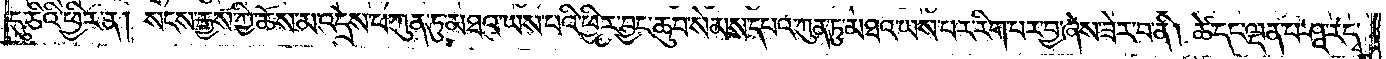དུ་ཅིའི་ཕྱིར་ན། སངས་རྒྱས་ཀྱི་ཆོས་མ་འདྲེས་པ་ཀུན་ཏུ་མཐའ་ཡས་པའི་ཕྱིར་བྱང་ཆུབ་སེམས་དཔའ་ཀུན་ཏུ་མཐའ་ཡས་པར་རིག་པར་བྱ་ཞེས་ཟེར་བ་ནི། ཚེ་དང་ལྡན་པ་ཤཱ་ར་དྭ་
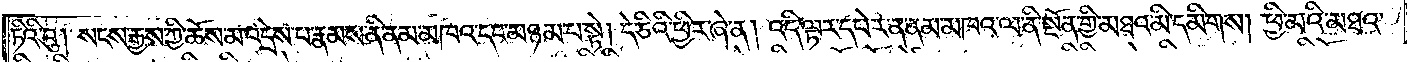ཏིའི་བུ། སངས་རྒྱས་ཀྱི་ཆོས་མ་འདྲེས་པ་རྣམས་ནི་ནམ་མཁའ་དང་མཉམ་པ་སྟེ། དེ་ཅིའི་ཕྱིར་ཞེ་ན། འདི་ལྟར་དཔེར་ན་ནམ་མཁའ་ལ་ནི་སྔོན་གྱི་མཐའ་མི་དམིགས། ཕྱི་མའི་མཐའ་
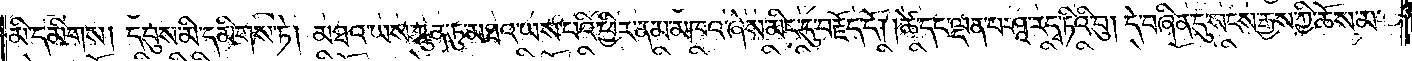མི་དམིགས། དབུས་མི་དམིགས་ཏེ། མཐའ་ཡས་ཀུན་ཏུ་མཐའ་ཡས་པའི་ཕྱིར་ནམ་མཁའ་ཞེས་མིང་དུ་བརྗོད་དོ། །ཚེ་དང་ལྡན་པ་ཤཱ་ར་དྭ་ཏིའི་བུ་དེ་བཞིན་དུ་སངས་རྒྱས་ཀྱི་ཆོས་མ་
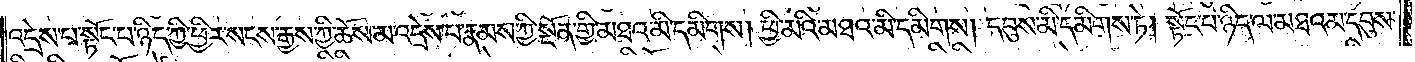འདྲེས་པ་སྟོང་པ་ཉིད་ཀྱི་ཕྱིར་སངས་རྒྱས་ཀྱི་ཆོས་མ་འདྲེས་པ་རྣམས་ཀྱི་སྔོན་གྱི་མཐའ་མི་དམིགས། ཕྱི་མའི་མཐའ་མི་དམིགས། དབུས་མི་དམིགས་ཏེ། སྟོང་པ་ཉིད་ལ་མཐའམ་དབུས་
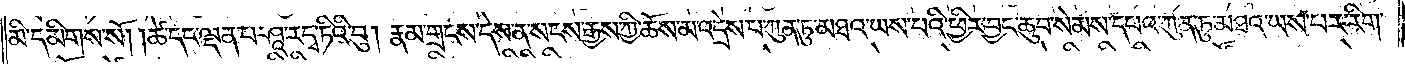མི་དམིགས་སོ། །ཚེ་དང་ལྡན་པ་ཤཱ་ར་དྭ་ཏིའི་བུ། རྣམ་གྲངས་དེས་ན་སངས་རྒྱས་ཀྱི་ཆོས་མ་འདྲེས་པ་ཀུན་ཏུ་མཐའ་ཡས་པའི་ཕྱིར་བྱང་ཆུབ་སེམས་དཔའ་ཀུན་ཏུ་མཐའ་ཡས་པར་རིག་
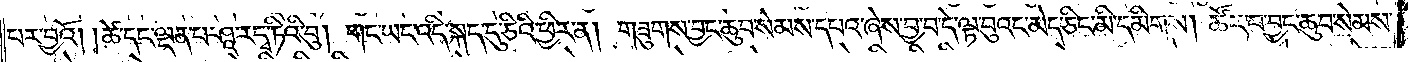པར་བྱའོ། །ཚེ་དང་ལྡན་པ་ཤཱ་ར་དྭ་ཏིའི་བུ། གང་ཡང་འདི་སྐད་དུ་ཅིའི་ཕྱིར་ན། གཟུགས་བྱང་ཆུབ་སེམས་དཔའ་ཞེས་བྱ་བ་དེ་ལྟ་བུའང་མེད་ཅིང་མི་དམིགས། ཚོར་བ་བྱང་ཆུབ་སེམས་
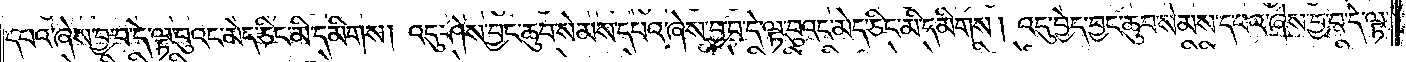དཔའ་ཞེས་བྱ་བ་དེ་ལྟ་བུའང་མེད་ཅིང་མི་དམིགས། འདུ་ཤེས་བྱང་ཆུབ་སེམས་དཔའ་ཞེས་བྱ་བ་དེ་ལྟ་བུའང་མེད་ཅིང་མི་དམིགས། འདུ་བྱེད་བྱང་ཆུབ་སེམས་དཔའ་ཞེས་བྱ་བ་དེ་ལྟ་
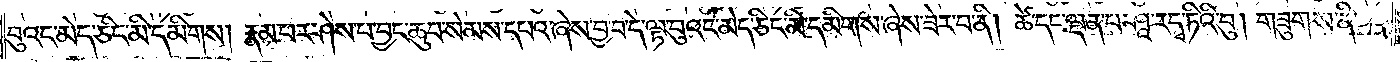བུའང་མེད་ཅིང་མི་དམིགས། རྣམ་པར་ཤེས་པ་བྱང་ཆུབ་སེམས་དཔའ་ཞེས་བྱ་བ་དེ་ལྟ་བུའང་མེད་ཅིང་མི་དམིགས་ཞེས་ཟེར་བ་ནི། ཚེ་དང་ལྡན་པ་ཤཱ་ར་དྭ་ཏིའི་བུ། གཟུགས་ནི་
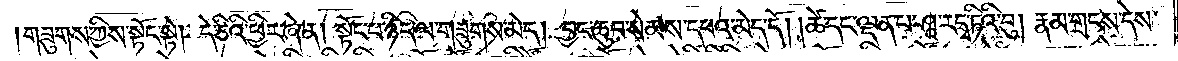གཟུགས་ཀྱིས་སྟོང་སྟེ། དེ་ཅིའི་ཕྱིར་ཞེ་ན། སྟོང་པ་ཉིད་ལ་གཟུགས་མེད། བྱང་ཆུབ་སེམས་དཔའ་མེད་དོ། །ཚེ་དང་ལྡན་པ་ཤཱ་ར་དྭ་ཏིའི་བུ། རྣམ་གྲངས་དེས་
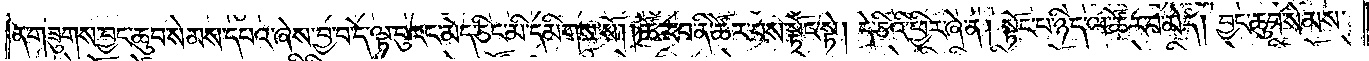ན་གཟུགས་བྱང་ཆུབ་སེམས་དཔའ་ཞེས་བྱ་བ་དེ་ལྟ་བུའང་མེད་ཅིང་མི་དམིགས་སོ། །ཚོར་བ་ནི་ཚོར་བས་སྟོང་སྟེ། དེ་ཅིའི་ཕྱིར་ཞེ་ན། སྟོང་པ་ཉིད་ལ་ཚོར་བ་མེད། བྱང་ཆུབ་སེམས་
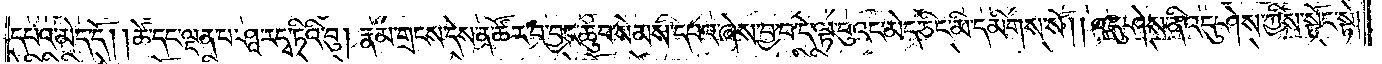དཔའ་མེད་དོ། །ཚེ་དང་ལྡན་པ་ཤཱ་ར་དྭ་ཏིའི་བུ། རྣམ་གྲངས་ཏེས་ན་ཚོར་བ་བྱང་ཆུབ་སེམས་དཔའ་ཞེས་བྱ་བ་དེ་ལྟ་བུའང་མེད་ཅིང་མི་དམིགས་སོ། །འདུ་ཤེས་ནི་འདུ་ཤེས་ཀྱིས་སྟོང་སྟེ།
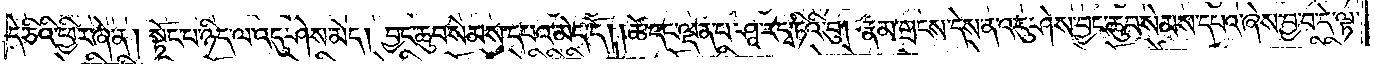དེ་ཅིའི་ཕྱིར་ཞེ་ན། སྟོང་པ་ཉིད་ལ་འདུ་ཤེས་མེད། བྱང་ཆུབ་སེམས་དཔའ་མེད་དོ། །ཚེ་དང་ལྡན་པ་ཤཱ་ར་དྭ་ཏིའི་བུ། རྣམ་གྲངས་དེས་ན་འདུ་ཤེས་བྱང་ཆུབ་སེམས་དཔའ་ཞེས་བྱ་བ་དེ་ལྟ་
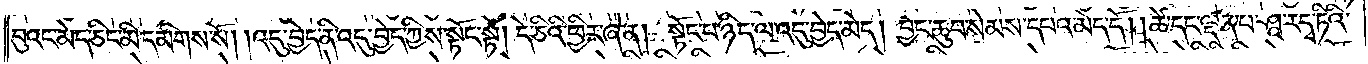བུའང་མེད་ཅིང་མི་དམིགས་སོ། །འདུ་བྱེད་ནི་འདུ་བྱེད་ཀྱིས་སྟོང་སྟེ། དེ་ཅིའི་ཕྱིར་ཞེ་ན། སྟོང་པ་ཉིད་ལ་འདུ་བྱེད་མེད། བྱང་ཆུབ་སེམས་དཔའ་མེད་དོ། །ཚེ་དང་ལྡན་པ་ཤཱ་ར་དྭ་ཏིའི་
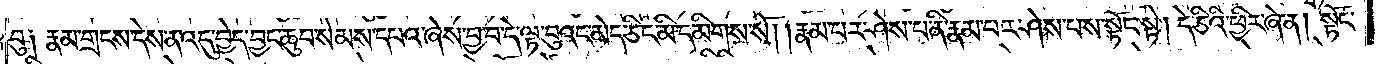བུ། རྣམ་གྲངས་དེས་ན་འདུ་བྱེད་བྱང་ཆུབ་སེམས་དཔའ་ཞེས་བྱ་བ་དེ་ལྟ་བུའང་མེད་ཅིང་མི་དམིགས་སོ། །རྣམ་པར་ཤེས་པ་ནི་རྣམ་པར་ཤེས་པས་སྟོང་སྟེ། དེ་ཅིའི་ཕྱིར་ཞེ་ན། སྟོང་
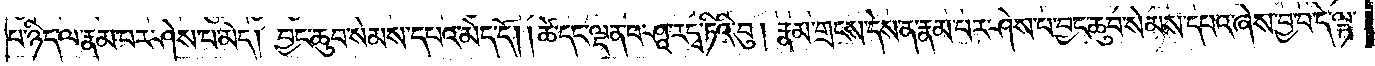པ་ཉིད་ལ་རྣམ་པར་ཤེས་པ་མེད། བྱང་ཆུབ་སེམས་དཔའ་མེད་དོ། ། ཚེ་དང་ལྡན་པ་ཤཱ་ར་དྭ་ཏིའི་བུ། རྣམ་གྲངས་དེས་ན་རྣམ་པར་ཤེས་པ་བྱང་ཆུབ་སེམས་དཔའ་ཞེས་བྱ་བ་དེ་ལྟ་
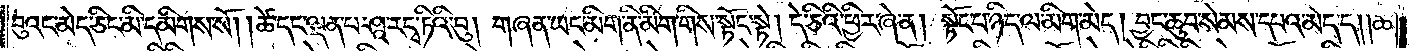བུའང་མེད་ཅིང་མི་དམིགས་སོ། །ཚེ་དང་ལྡན་པ་ཤཱ་ར་དྭ་ཏིའི་བུ། གཞན་ཡང་མིག་ནི་མིག་གིས་སྟོང་སྟེ། དེ་ཅིའི་ཕྱིར་ཞེ་ན། སྟོང་པ་ཉིད་ལ་མིག་མེད། བྱང་ཆུབ་སེམས་དཔའ་མེད་དོ། །ཚེ་
